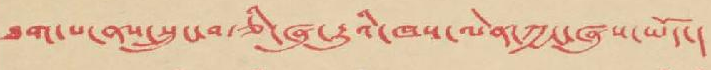ཐག་པ་ནས་སྲུང་བརྩི་ཞུ་རྒྱུའི་ཁས་ལེན་ཀྱང་ཞུས་ཡོད་།
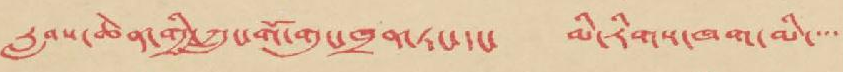རླབས་ཆེན་གྱི་ཀྲུང་གོ་གུང་ཁྲན་ཏང་དང་ མི་རིགས་ཁག་མི་་་་
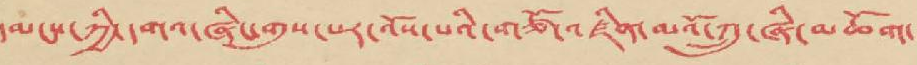དམངས་ཀྱི་དགའ་ཞིང་གུས་པར་འོས་པའི་གཙོ་འཛིན་མའོ་ཀྲུ་ཞི་མཆོག་
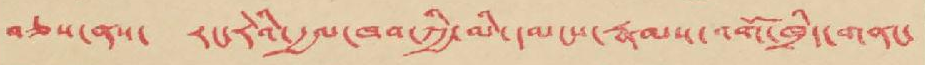བཅས་ནས་ རང་རེའི་རྒྱལ་ཁབ་ཀྱི་མི་དམངས་རྣམས་འགོ་ཁྲིད་གནང་
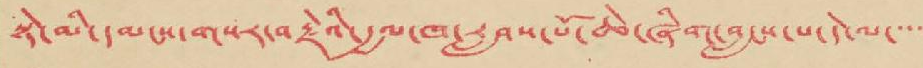སྟེ་མི་དམངས་གསར་བརྗེའི་རྒྱལ་ཁ་རླབས་པོ་ཆེ་ཞིག་བླངས་པ་དེ་ལ་་་་
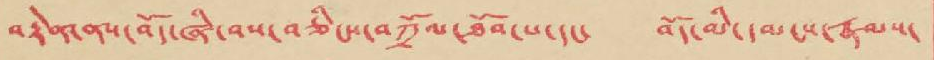བརྟེན་ནས་བོད་ཞི་བས་བཅིངས་བཀྲོལ་ཐོབ་པ་དང་ བོད་མི་དམངས་རྣམས་
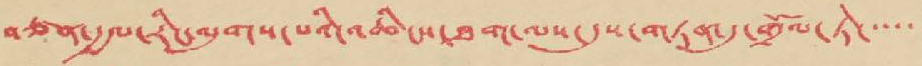བཙན་རྒྱལ་རིང་ལུགས་པའི་འཆིངས་ཐག་ལས་དུས་གཏན་དུ་གྲོལ་ཏེ་་་་་
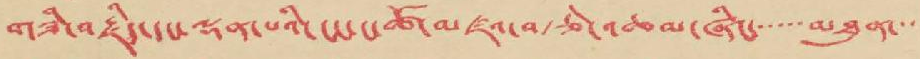གཟི་བརྗིད་དང་ལྡན་པའི་ངང་ང་ཚོ་མཛའ་བརྩེ་འཆམ་ཞིང་་་་་་མཐུན་་་
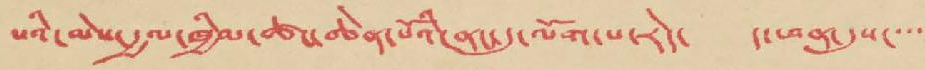པའི་མེས་རྒྱལ་ཁྱིམ་ཚང་ཆེན་པོའི་ནང་དུ་ལོག་པ་རེད་ ད་ཕན་དུས་་་་
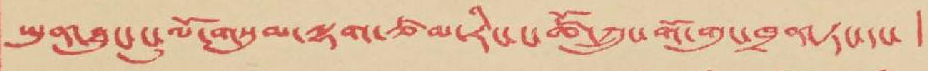ཡུན་ཐུང་ངུ་ལོ་གསུམ་ལྷག་ཙམ་རིང་ང་ཚོ་ཀྲུང་གོ་གུང་ཁྲན་ཏང་དང་ །
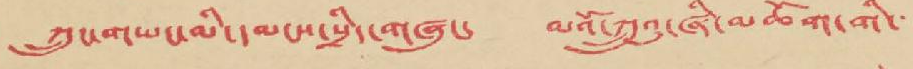ཀྲུང་གཡང་མི་དམངས་སྲིད་གཞུང་ མའོ་ཀྲུའུ་ཞི་མཆོག་གི་
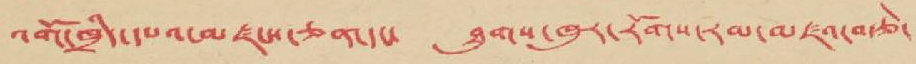འགོ་ཁྲིད་དཔའ་མཛངས་ཅན་དང་ ཐུགས་ཁུར་རོགས་རམ་མཛའ་བརྩེ་
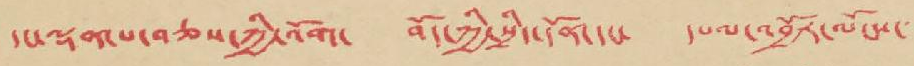དང་ལྡན་པ་བཅས་ཀྱི་འོག་ བོད་ཀྱི་སྲིད་དོན་དང་ དཔལ་འབྱོར་ལོངས་་
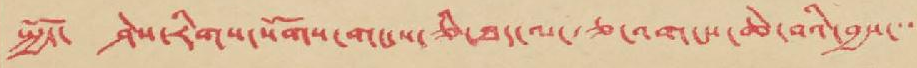སྤྱོད་ ཤེས་རིགས་སོགས་གང་ས་ཅི་ཐད་ལ་རྩ་འགངས་ཆེ་བའི་བྱས་་་
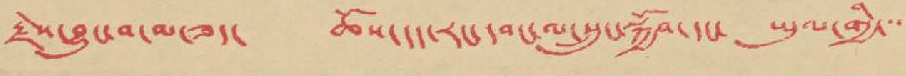རྗེས་བྱུང་བ་མ་ཟད་ ཆོས་དད་རང་དབང་ལ་སྲུང་སྐྱོབ་དང་ ཡུལ་གྱི་་་
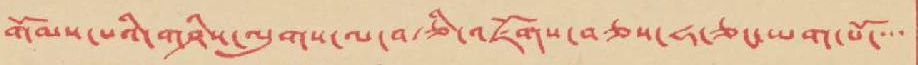གོམས་པའི་གཤིས་ལུགས་ལ་བརྩི་འཇོགས་བཅས་ཧ་ཅང་ཡག་པོ་་་་
